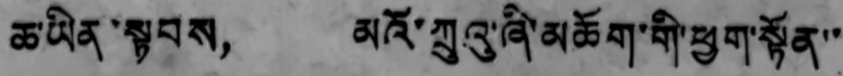ཆ་ཡིན་སྟབས， མའོ་ཀྲུའུ་ཞི་མཆོག་གི་ཕྱག་སྟོན་་
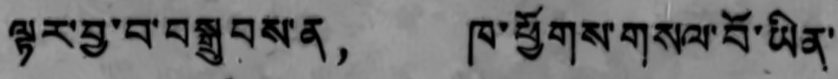ལྟར་བྱ་བ་བསྒྲུབས་ན， ཁ་ཕྱོགས་གསལ་བོ་ཡིན་
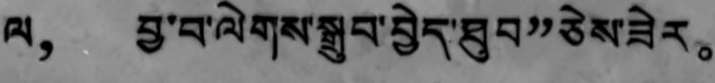ལ， བྱ་བ་ལེགས་སྒྲུབ་བྱེད་ཐུབ”ཅེས་ཟེར。
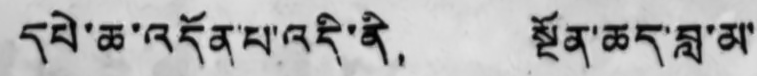དཔེ་ཆ་འདོན་པ་འདི་ནི， སྔོན་ཆད་བླ་མ་
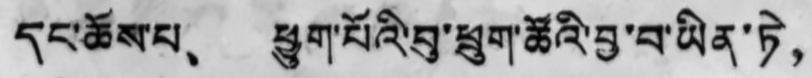དང་ཆོས་པ、 ཕྱུག་པོའི་བུ་ཕྲུག་ཚོའི་བྱ་བ་ཡིན་ཏེ，
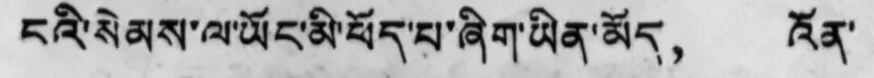ངའི་སེམས་ལ་ཡོང་མི་ཕོད་པ་ཞིག་ཡིན་མོད， འོན་
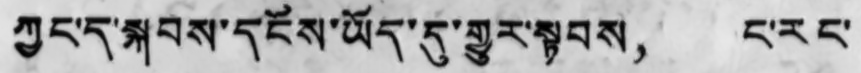ཀྱང་ད་སྐབས་དངོས་ཡོད་དུ་གྱུར་སྟབས， ང་རང་
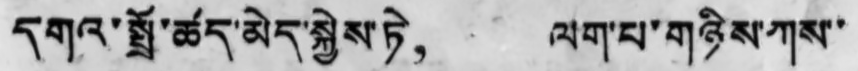དགའ་སྤྲོ་ཚད་མེད་སྐྱེས་ཏེ， ལག་པ་གཉིས་ཀས་་
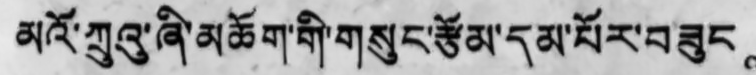མའོ་ཀྲུའུ་ཞི་མཆོག་གི་གསུང་རྩོམ་དམ་པོར་བཟུང。
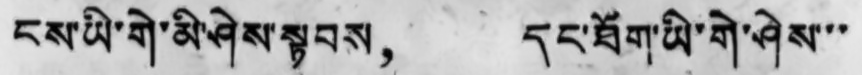ངས་ཡི་གེ་མི་ཤེས་སྟབས， དང་ཐོག་ཡི་གེ་ཤེས་་་
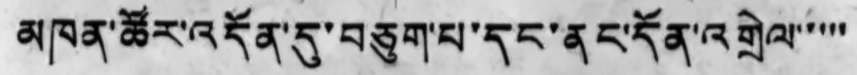མཁན་ཚོར་འདོན་དུ་བཅུག་པ་དང་ནང་དོན་འགྲེལ་་་་་
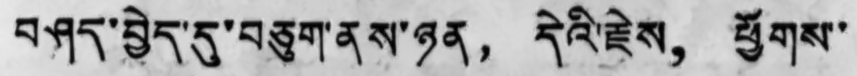བཤད་བྱེད་དུ་བཅུག་ནས་ཉན， དེའི་རྗེས， ཕྱོགས་
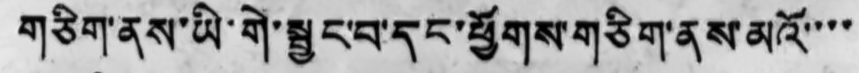གཅིག་ནས་ཡི་གེ་སྦྱང་བ་དང་ཕྱོགས་གཅིག་ནས་མའོ་་་་
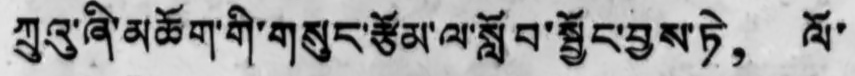ཀྲུའུ་ཞི་མཆོག་གི་གསུང་རྩོམ་ལ་སློབ་སྦྱོང་བྱས་ཏེ， ལོ་
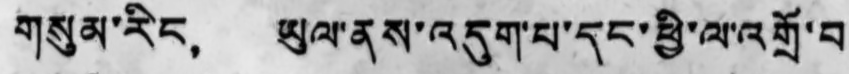གསུམ་རིང， ཡུལ་ནས་འདུག་པ་དང་ཕྱི་ལ་འགྲོ་བ
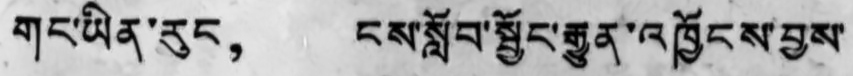གང་ཡིན་རུང， ངས་སློབ་སྦྱོང་རྒྱུན་འཁྱོངས་བྱས་
